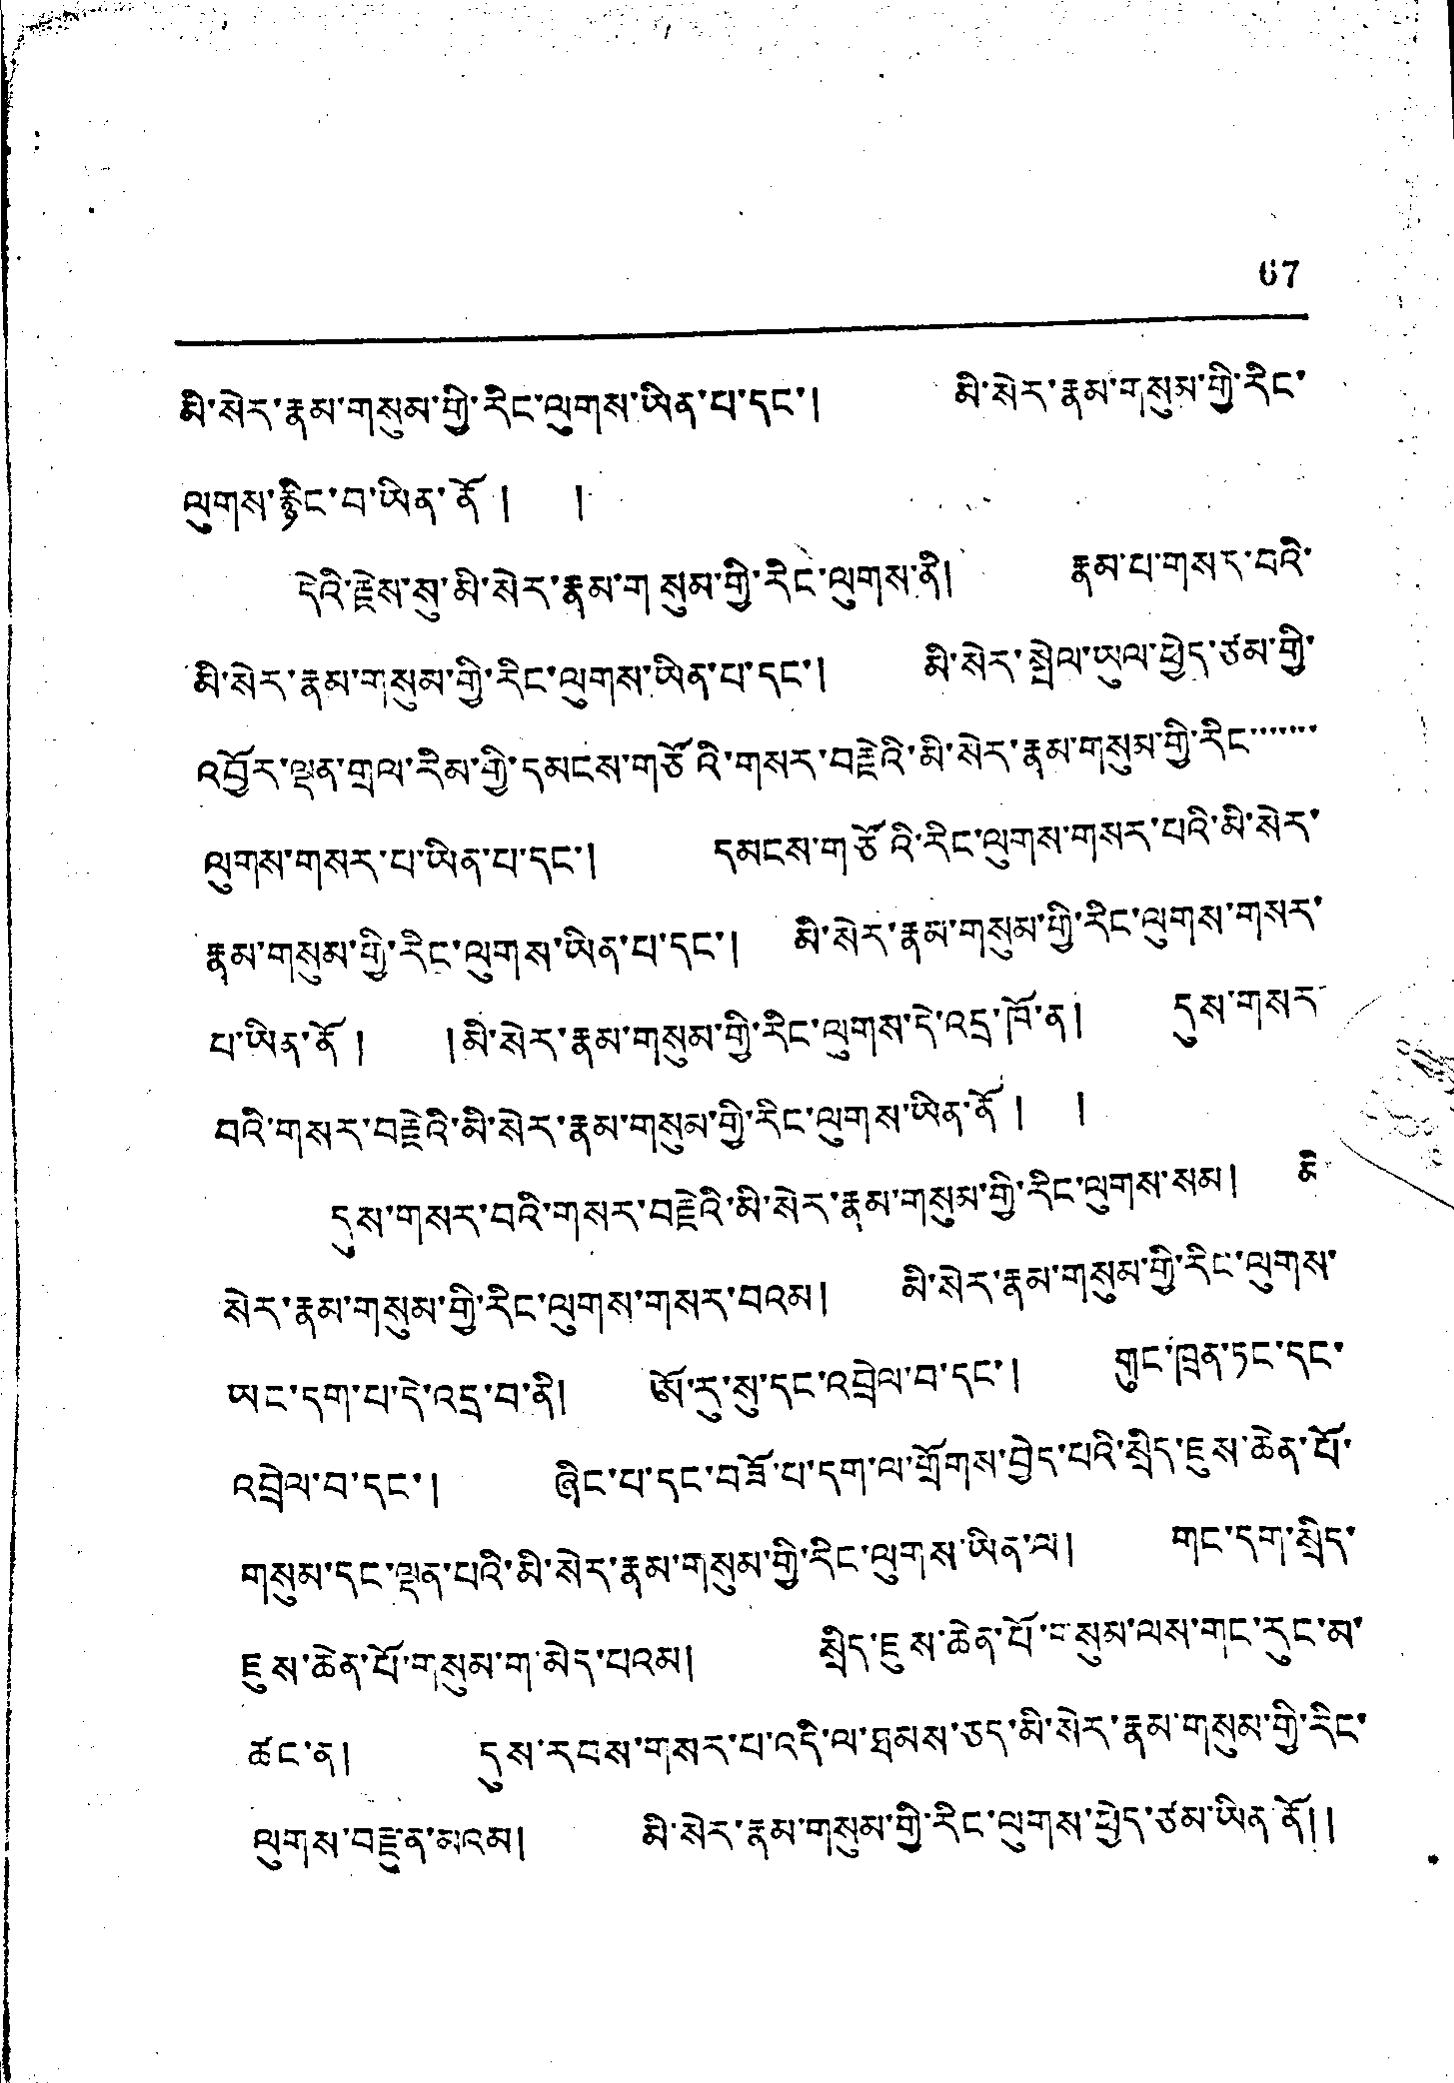67
མི་སེར་རྣམ་གསུམ་གྱི་རིང་ལུགས་ཡིན་པ་དང་། མི་སེར་རྣམ་གསུམ་གྱི་རིང་
ལུགས་རྙིང་བ་ཡིན་ནོ ། །
དེའི་རྗེས་སུ་མི་སེར་རྣམ་གསུམ་གྱི་རིང་ལུགས་ནི། རྣམ་པ་གསར་བའི་
མི་སེར་རྣམ་གསུམ་གྱི་རིང་ལུགས་ཡིན་པ་དང་། མི་སེར་སྤེལ་ཡུལ་ཕྱེད་ཙམ་གྱི་
འབྱོར་ལྡན་གྲལ་རིམ་གྱི་དམངས་གཙོའི་གསར་བརྗེའི་མི་སེར་རྣམ་གསུམ་གྱི་རིང་་་་་་་
ལུགས་གསར་པ་ཡིན་པ་དང་། དམངས་གཙོའི་རིང་ལུགས་གསར་པའི་མི་སེར་
རྣམ་གསུམ་གྱི་རིང་ལུགས་ཡིན་པ་དང་། མི་སེར་རྣམ་གསུམ་གྱི་རིང་ལུགས་གསར་
པ་ཡིན་ནོ ། །མི་སེར་རྣམ་གསུམ་གྱི་རིང་ལུགས་དེ་འདྲ་ཁོ་ན། དུས་གསར་
བའི་གསར་བརྗེའི་མི་སེར་རྣམ་གསུམ་གྱི་རིང་ལུགས་ཡིན་ནོ ། །
དུས་གསར་བའི་གསར་བརྗེའི་མི་སེར་རྣམ་གསུམ་གྱི་རིང་ལུགས་སམ། མི་
སེར་རྣམ་གསུམ་གྱི་རིང་ལུགས་གསར་བའམ། མི་སེར་རྣམ་གསུལ་གྱི་རིང་ལུགས་
ཡང་དག་པ་དེ་འདྲ་བ་ནི། ཨོ་རུ་སུ་དང་འབྲེལ་བ་དང་། གུང་ཁྲན་ཏང་དང་
འབྲེལ་བ་དང་། ཞིང་པ་དང་བཟོ་པ་དག་ལ་གྲོགས་བྱེད་པའི་སྲིད་ཇུས་ཆེན་པོ་
གསུམ་དང་ལྡན་པའི་མི་སེར་རྣམ་གསུམ་གྱི་རིང་ལུགས་ཡིན་ལ། གང་དག་སྲིད་
ཇུས་ཆེན་པོ་གསུམ་ག་མེད་པའམ། སྲིད་ཇུས་ཆེན་པོ་གསུམ་ལས་གང་རུང་མ་
ཚང་ནི། དུས་རབས་གསར་པ་འདི་ལ་ཐམས་ཅད་མི་སེར་རྣམ་གསུམ་གྱི་རིང་
ལུགས་བརྫུན་མའམ། མི་སེར་རྣམ་གསུམ་གྱི་རིང་ལུགས་ཕྱེད་ཙམ་ཡིན་ནོ།།
